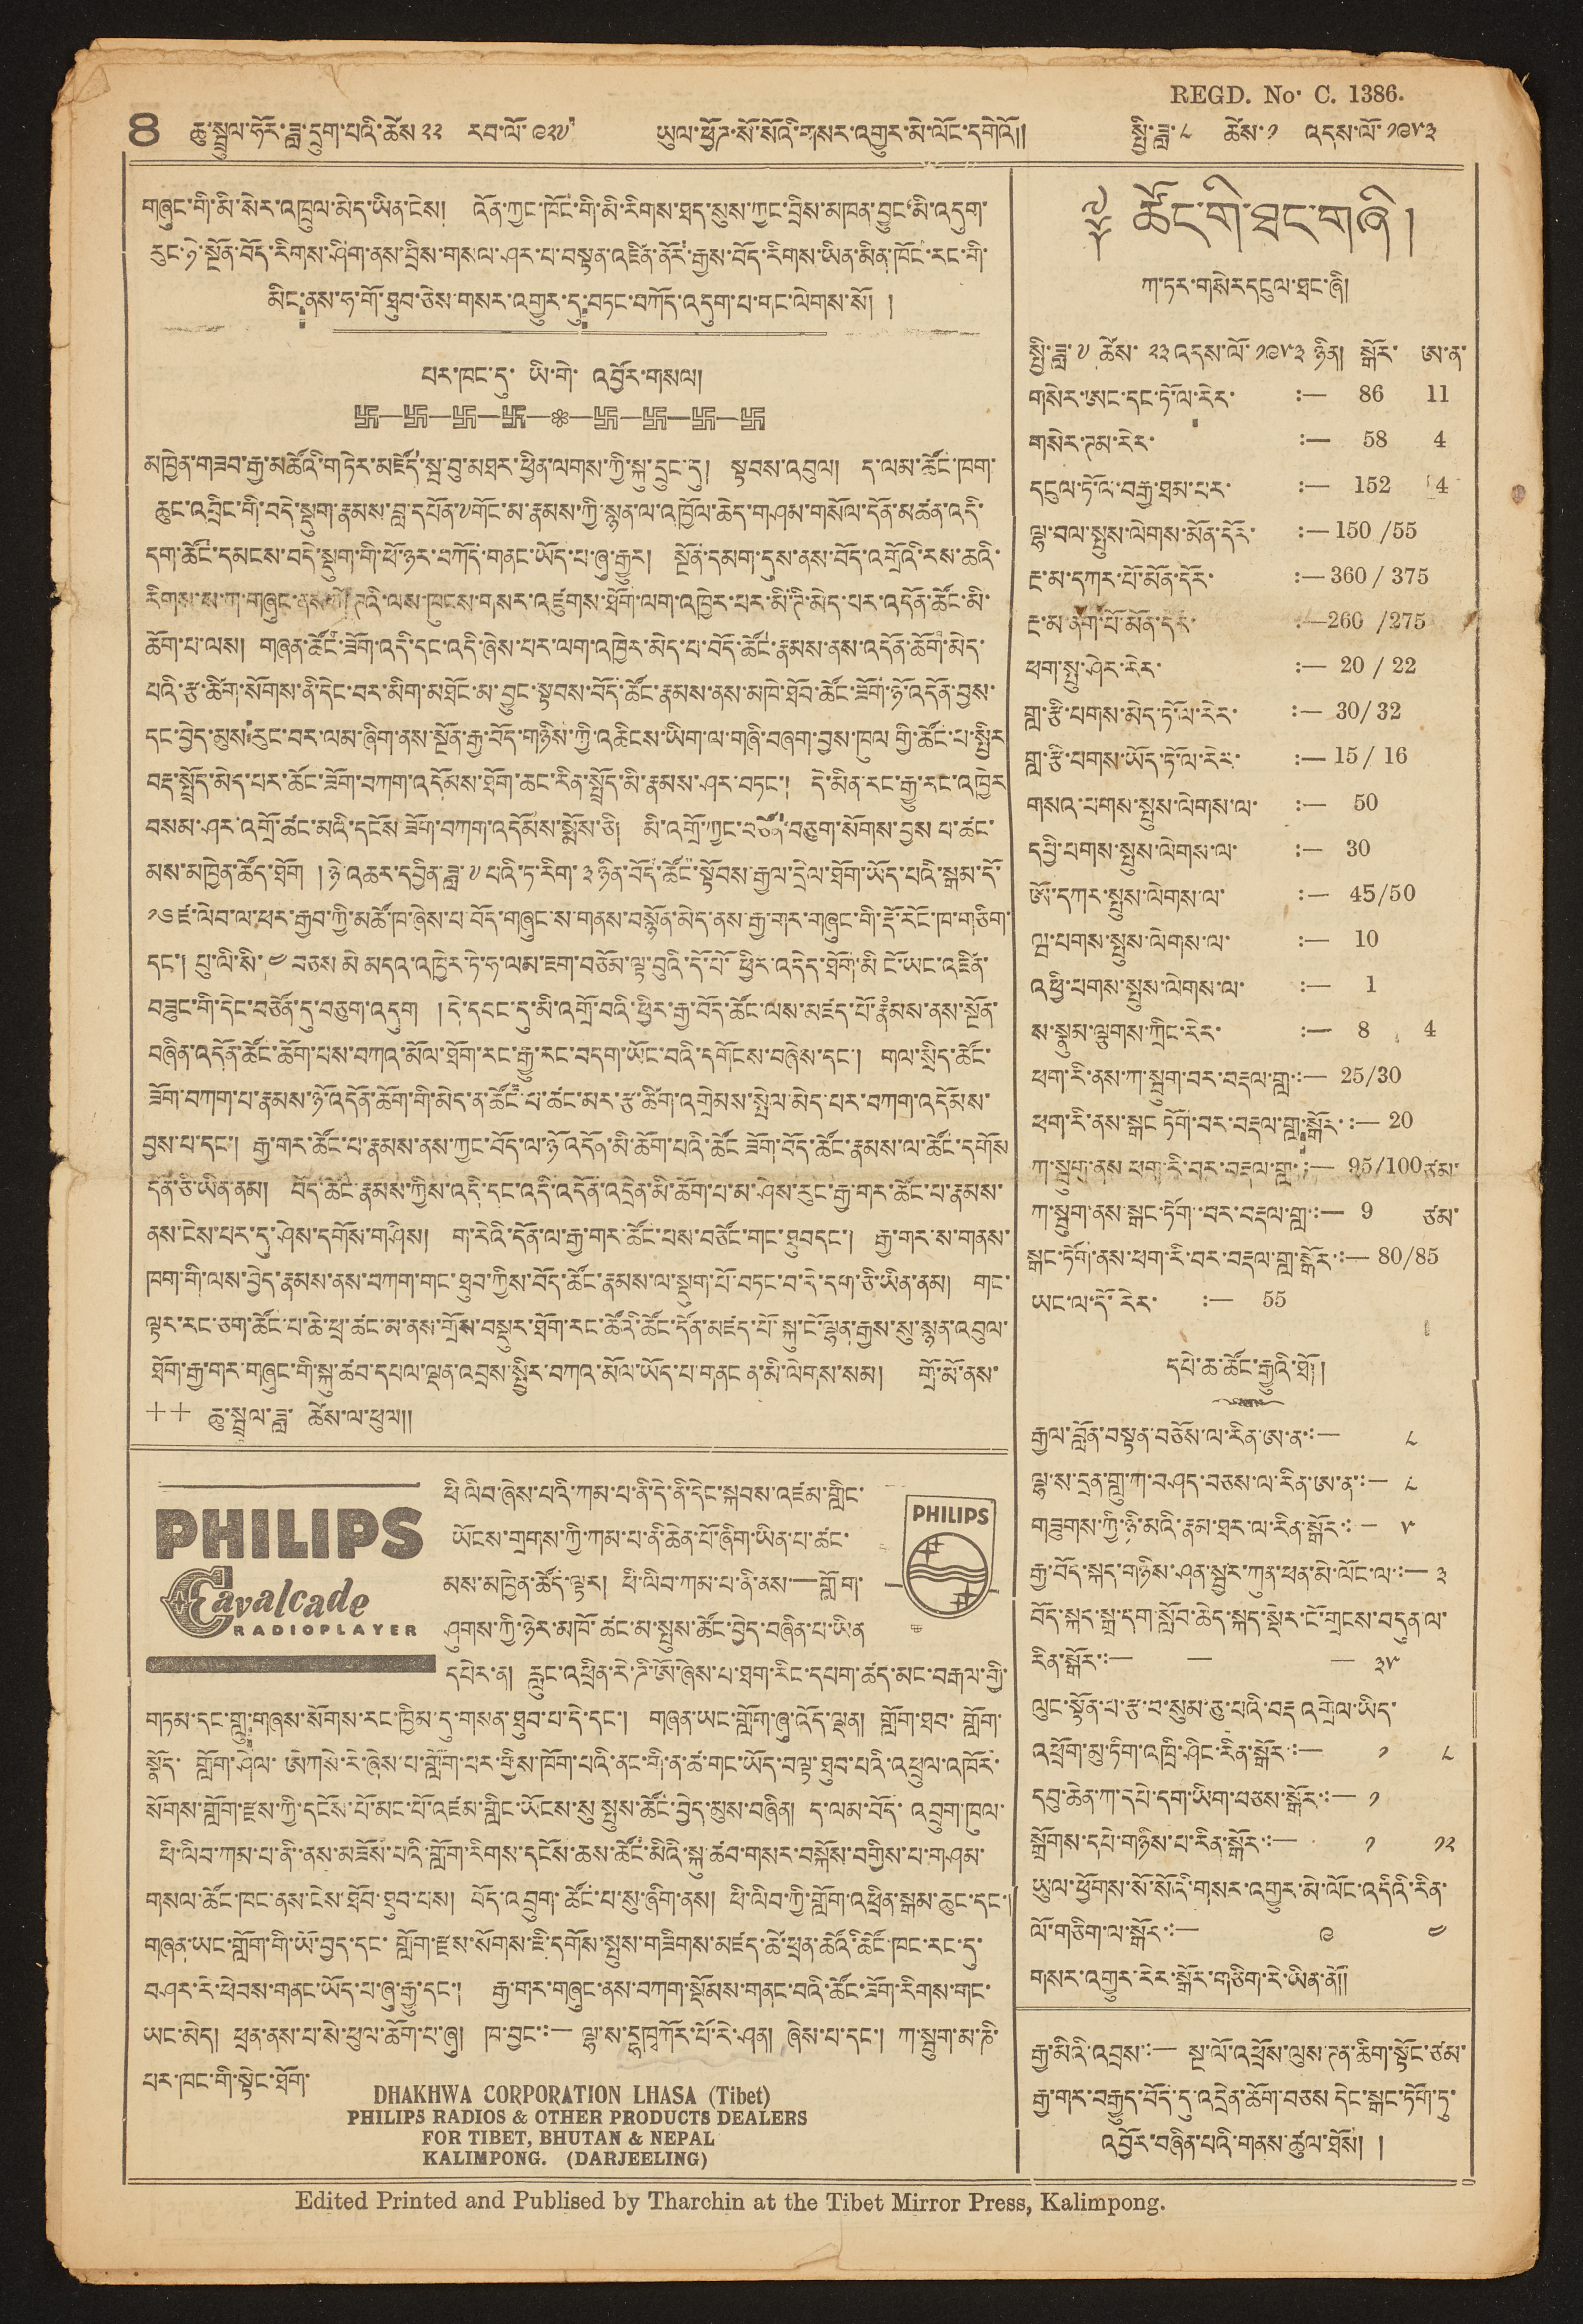8 ཆུ་སྦྲུལ་ཧོར་ཟླ་དྲུག་པའི་ཚེས་ ༢༢ རབ་ལོ་ ༩༢༧ ཡུལ་ཕྱོཌ་སོ་སོའི་གསར་འགྱུར་མེ་ལོང་དགེའོ།། སྤྱི་ཟླ་ ༨ ཚེས་ ༡ འདས་ལོ་ ༡༩༥༣
གཞུང་གི་མི་སེར་འཁྲུལ་མེད་ཡིན་ངེས། འོན་ཀྱང་ཁོང་གི་མི་རིགས་ཐད་སུས་ཀྱང་བྲིས་མཁན་བྱུང་མི་འདུག་
རུང་ཉེ་སྔོན་བོད་རིགས་ཤོག་ནས་བྲིས་གསལ་ཤར་པ་བསྟན་འཛིན་ནོར་རྒྱས་བོད་རིགས་ཡིན་མིན་ཁོང་རང་གི་
མིང་ནས་ཧ་གོ་ཐུབ་ཅེས་གསར་འགྱུར་དུ་བཏང་བཀོད་འདུག་པ་གང་ལེགས་སོ།།
པར་ཁང་དུ་ཡི་གེ་འབྱོར་གསལ།
མཁྱེན་གཟབ་རྒྱ་མཚོའི་གཏེར་མཛོད་སྦ་བུ་མཐར་ཕྱིན་ལེགས་ཀྱི་སྐུ་དྲུང་དུ། སྟབས་འབུལ། ད་ལམ་ཚོང་ཁག་
ཆུང་འབྲིང་གི་བདེ་སྡུག་རྣམས་བླ་དཔོན་༸གོང་མ་རྣམས་ཀྱི་སྙན་ལ་འཁྱོལ་ཆེད་གཤམ་གསོལ་དོན་མཚན་འདི་
དག་ཚོང་དམངས་བདེ་སྡུག་གི་ཕོ་ཉར་བཀོད་གནང་ཡོད་པ་ཞུ་རྒྱུར། སྔོན་དམག་དུས་ནས་བོད་འགྲོའི་རས་ཆེའི་
རིགས་ས་ཀ་གཞུང་ནས་ཀོ་ཌའི་ལས་ཁུངས་གསར་འཛུགས་ཐོག་ལག་འཁྱེར་པར་མི་ཊི་མེད་པར་འདོན་ཚོང་མི་
ཆོག་པ་ལས། གཞན་ཚོང་ཟོག་འདི་དང་འདི་ཞེས་པར་ལག་འཁྱེར་མེད་པ་བོད་ཚོང་རྣམས་ནས་འདོན་ཆོག་མེད་
པའི་རྩ་ཚིག་སོགས་ནི་དེང་བར་མིག་མཐོང་མ་བྱུང་སྟབས་བོད་ཚོང་རྣམས་ནས་མཁེ་ཐོབ་ཚོང་ཟོག་ཉོ་འདོན་བྱས་
དང་བྱེད་མུས་རུང་བར་ལམ་ཞིག་ནས་སྔོན་རྒྱ་བོད་གཉིས་ཀྱི་འཆིངས་ཡིག་ལ་གཞི་བཞག་བྱས་ཁུལ གྱི་ཚོང་པ་སྤྱིར
བརྡ་སྤྲོད་མེད་པར་ཆོང་ཟོག་བཀག་འདོམས་ཐོག་ཆང་རིན་སྤྲོད་མི་རྣམས་ཤར་བཏང་། དེ་མིན་རང་རྒྱུ་རང་འཁྱེར
བསམ་ཤར་འགྲི་ཚང་མའི་དངོས ཟོག་བཀག་འདོམས་སྨོས་ཅི། མི་འགྲོ་ཀྱང་བཙོན་བཅུག་སོགས་བྱས་པ་ཚང་
མས་མཁྱེན་ཚོད་ཐོག །ཉེ་འཆར་དབྱིན་ཟླ་ ༧ པའི་ཏ་རིག་ ༣ ཉིན་བོད་ཚོང་སྟོབས་རྒྱལ་དྲེལ་ཐོག་ཡོད་པའི་སྒམ་དོ་
༡༦ རྫ་ལེབ་ལ་ཕར་རྒྱབ་ཀྱི་མཚོ་ཁ་ཞེས་པ བོད་གཞུང་ས་གནས་བསྙོན་མེད་ནས་རྒྱ་གར་གཞུང་གི་རྡོ་རོང་ཁ་གཅིག་
དང་། པུ་ལི་སི་ ༤ བཅས མི མདའ་འཁྱེར་ཏེ་ཧ་ལམ་ཇག་བཅོམ་ལྟ་བུའི་དོ་པོ་ཕྱིར་འདེད་ཐོག་མི ངོ་ཡང་འཛིན་
བཟུང་གི་དེང་བཙོན་དུ་བཅུག་འདུག །དེ་དབང་དུ་མི་འགྲོ་བའི་རྒྱ་བོད་ཚོང་ལས་མཛད་པོ་རྣཾམས་ནས་སྔོན་
བཞིན་འདོན་ཚོང་ཆོག་པས་བཀའ་མོལ་ཐོག་རང་རྒྱུ་རང་བདག་ཡོང་བའི་དགོངས་བཞེས་དང་། གལ་སྲིད་ཚོང་
ཟོག་བཀག་པ་རྣམས་ཉོ་འདོན་ཆོག་གི་མེད་ན་ཚོང་པ་ཚང་མར་རྩ་ཚིག་འགྲེམས་སྤེལ་མེད་པར་བཀག་འདོམས་
བྱས་པ་དང་། རྒྱ་གར་ཚོང་པ་རྣམས་ནས་ཀྱང་བོད་ལ་འདོན་མི་ཆོག་པའི་ཚོང ཟོག་བོད་ཚོང་རྣམས་ལ་ཚོང་དགོས
དོན་ཅི་ཡིན་ནམ། བོད་ཚོང་རྣམས་ཀྱིས་འདི་དང་འདི་འདོན་འདྲེན་མི་ཆོག་པ་མ་ཤེས་རུང་རྒྱ་གར་ཚོང་པ་རྣམས་
ནས་ངེས་པར་དུ་ཤེས་དགོས་གཤིས། ག་རེའི་དོན་ལ་རྒྱ་གར་ཚོང་པས་བཙོང་གང་ཐུབ དང་། རྒྱ་གར་ས་གནས་
ཁག་གི་ལས་བྱེད་རྣམས་ནས་བཀག་གང་ཐུབ་ཀྱིས་བོད་ཚོང་རྣམས་ལ་སྡུག་པོ་བཏང་བ་དེ་དག་ཅི་ཡིན་ནམ། གང་
ལྟར་རང་ཅག་ཚོང་པ་ཆེ་ཕྲ་ཚང་མ་ནས་གྲོས་བསྡུར་ཐོག་རང་ཚོའི་ཚོང་དོན་མཛད་པོ་སྐུ་ངོ་ལྷན་རྒྱས་སུ་སྙན་འབུལ་
ཐོག་རྒྱ་གར་གཞུང་གི་སྐུ་ཚབ་དཔལ་ལྡན་འབྲས་སྤྱིར་བཀའ་མོལ་ཡོད་པ་གནང ན་མི་ལེགས་སམ། གྲོ་མོ་ནས་
++ ཆུ་སྦྲུལ་ཟླ་ཚེས་ལ་ཕུལ།།
PHILIPS
Eavalcade
RADIOPLAYER
ཕི ལིབ་ཞེས་པའི་ཀམ་པ་ནི་དེ་ནི་དེང་སྐབས་འཛམ་གླིང་
ཡོངས་གྲགས་ཀྱི་ཀམ་པ་ནི་ཆེན་པོ་ཞིག་ཡོད་པ་ཚང་
མས་མཁྱེན་ཚོད་ལྟར། ཕི་ལིབ་ཀམ་པ་ནི་ནས་—གློག་
ཤུགས་ཀྱི་ཉེར་མཁོ་ཚང་མ་སྤུས་ཚོང་བྱེད་བཞིན་པ་ཡིན
དཔེར་ན། རླུང་འཕྲིན་རེ་ཌི་ཨོ་ཞེས་པ་ཐག་རིང་དཔག་ཚད་མང་བརྒལ་གྱི་
གཏམ་དང་གླུ་གཞས་སོགས་རང་ཁྱིམ་དུ་གསན་ཐུབ་བ་དེ་དང་། གཞན་ཡང་གློག་ཞུ་འོན་ལྡན། གློག་ཐབ་གློག་
སྣོད་གློག་ཤེལ་ཨེཀསེ་རེ་ཞེས་པ་གློག་པར་གྱིས་ཁོག་པའི་ནང་གི་ན་ཚ་གང་ཡོད་བལྟ་ཐུབ་པའི་འཕྲུལ་འཁོར་
སོགས་གློག་རྫས་ཀྱི་དངོས་པོ་མང་པོ་འཛམ་གླིང་ཡོངས་སུ་སྤུས་ཚོང་བྱེད་མུས་བཞིན། ད་ལམ་བོད་འབྲུལ་ཁུལ་
ཕི་ལིབ་ཀམ་པ་ནི་་ནས་བཟོས་པའི་གློག་རིགས་དངོས་ཆས་ཚོང་མིའི་སྐུ་ཚབ་གསར་བསྐོས་བགྱིས་པ་གཤམ་
གསལ་ཚོང་ཁང་ནས་ངེས་ཐོབ་ཐུབ་པས། བོད་འབྲུག་ཚོང་པ་སུ་ཞིག་ནས། ཕི་ལིབ་ཀྱི་གློག་འཕྲིན་སྒམ་ཆུང་དང་།
གཞན་ཡང་གློག་གི་ཡོ་བྱད་དང་གློག་རྫས་སོགས་ཇི་དགོས་སྤུས་གཟིགས་མཛད་ཚེ་ཕྲན་ཚོའ་ཚོང་ཁང་རང་དུ་
བཤར་རེ་ཕེབས་གནང་ཡོད་པ་ཞུ་རྒྱུ་དང་། རྒྱ་གར་གཞུང་ནས་བཀག་སྡོམས་གནང་བའི་ཚོང་རིགས་གང་
ཡང་མེད། ཕྲན་ནས་པ་སེ་ཕུལ་ཆོག་པ་ཞུ། ཁ་བྱང་:— ལྷ་ས་དྷཁྭཀོར་པོ་རེ་ཤན། ཞེས་པ་དང་། ཀ་སྦུག་མ་ནི་
པར་ཁང་གི་སྟེང་ཐོག་
༈ ཚོང་གི་ཐང་གཞི།
ཀ་ཏར་གསེར་དངུལ་ཐང་ཞི།
སྤྱི་ཟླ་ ༧ ཚེས་ ༡༣ འདས་ལོ་ ༡༩༥༣ ཉིན། སྒོར་ ཨ་ན་
གསེར་ཨང་དང་ཏོ་ལ་རེར་ :— 86 11
གསེར་ཊམ་རེར་ :— 58 4
དངུལ་ཏོ་ལ་བརྒྱ་ཐམ་པར་ :— 152 4
ལྟ་བལ་སྤུས་ལེགས་མོན་དོར་ :— 150/55
རྔ་མ་དཀར་པོ་མོན་དོར་ :— 360/375
རྔ་མ་ནག་པོ་མོན་དོར་ :— 260/275
ཕག་སྤུ་ཤེར་རེར་ :— 20/22
གླ་རྩི་པགས་མེད་ཏོ་ལ་རེར་ :— 30/32
གླ་རྩི་པགས་ཡོད་ཏོ་ལ་རེར་ :— 15/16
གསའ་པགས་སྤུས་ལེགས་ལ་ :— 50
དབྱི་པགས་སྤུས་ལེགས་ལ་ :— 30
ཨོ་དཀར་སྤུས་ལེགས་ལ་ :— 45/50
ཝ་པགས་སྤུས་ལེགས་ལ་ :— 10
འཕྱི་པགས་སྤུས་ལེགས་ལ་ :— 1
ས་སྣུམ་ལྕགས་ཀྲིང་རེར་ :— 8 4
ཕག་རི་ནས་ཀ་སྤུག་བར་བརྡལ་གླ་:— 25/30
ཕག་རི་ནས་སྒང ཏོག་བར་བརྡལ་གླ་སྒོར་:— 20
ཀ་སྦུག་ནས ཕག་རི་བར་བརྡལ་གླ་:— 95/100 ཙམ་
ཀ་སྦུག་ནས་སྒང་ཏོག་བར་བརྡལ་གླ་:— 9 ཙམ་
སྒང་ཏོག་ནས་ཕག་རི་བར་བརྡལ་གླ་སྒོར་:— 80/85
ཡང་ལ་དོ་རིར་ :— 55
དཔེ་ཆ་ཚོང་རྒྱུའི་ཐོ།།
རྒྱལ་བློན་བསྟན་བཅོས་ལ་རིན་ཨ་ན་:—༨
ལྷ་ས་དྲན་གླུ་ཀ་བཤད་བཅས་ལ་རིན་ཨ་ན་:— ༨
གཟུགས་ཀྱི་ཉི་མའི་རྣམ་ཐར་ལ་རིན་སྒོར་:— ༥
རྒྱ་བོད་སྐད་གཉིས་ཤན་སྦྱར་ཀུན་ཕན་མེ་ལོང་ལ་:— ༣
བོད་སྐད་སྒྲ་དག་སློབ་ཆེད་སྐད་སྡེར་ངོ་གྲངས་བདུད་ལ་
རིན་སྒོར་:— — — ༣༨
ལུང་སྟོན་པ་རྩ་བ་སུམ་ཅུ་པའི་བརྡ འགྲེལ་ཡིད་
འཕྲོག་མུ་ཏིག་འཁྲི་ཤིང་རིན་སྒོར་:— ༡ ༨
དབུ་ཆེན་ཀ་དཔེ་གཉིས་པ་རིན་སྒོར་:— ༡ ༡༢
སྒྲོགས་དཔེ་གཉིས་པ་རིན་སྒོར་:— ༡ ༡༢
ཡུལ་ཕྱོགས་སོ་སོའི་གསར་འགྱུར་མེ་ལོང་འདིའི་རིན་
ལོ་གཅིག་ལ་སྒོར་:— ༩ ༤
གསར་འགྱུར་རེར་སྒོར་གཅིག་རེ་ཡིན་ནོ།།
རྒྱ་མིའི་འབྲས་:— སྔ་ལོ་འཕྲོས་ལུས་ཊན་ཆིག་སྟོང་ཙམ་
རྒྱ་གར་བརྒྱུད་བོད་དུ་འདྲེན་ཆོག་བཅས དེང་སྒང་ཏོག་ཏུ་
འབྱོར་བཞིན་པའི་གནས་ཚུལ་ཐོས།།
PHILIPS
Edited Printed and Published by Tharchin at the Tibet Mirror Press, Kalimpong.
